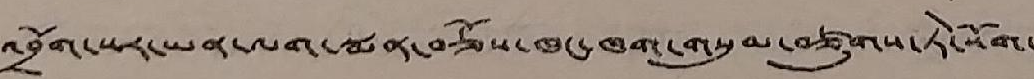འབྲོག་སར་ཡན་ལག་སྨན་བཅོས་ཁང་ཁག་གསུམ་བཙུགས་ཏེ་སོག་
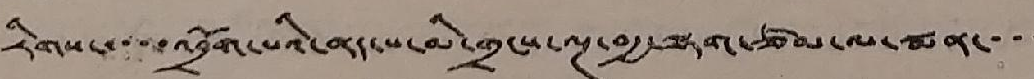རིགས་་་་་འབྲོག་པའི་ནད་པ་མི་གྲངས་ལྔ་བརྒྱ་ལྷག་ཙམ་ལ་སྨན་་་་
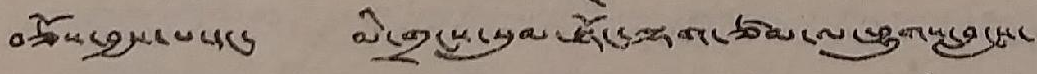བཅོས་བྱས་པ་དང་ མི་གྲངས་སུམ་སྟོང་ལྷག་ཙམ་ལ་ཕྱུགས་བླངས་
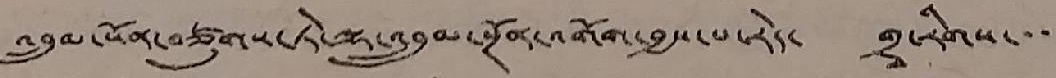འབྲུམ་སོན་བཙུགས་ཏེ་ལྷ་འབྲུམ་སྔོན་འགོག་བྱས་པ་རེད་ གྲྭ་རིགས་་་
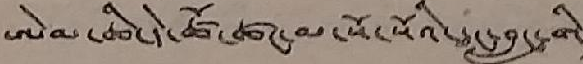ཨེམ་ཆི་དེ་ཚོ་ཚང་མ་སོ་སོའི་དང་བླང་གི
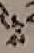ས་
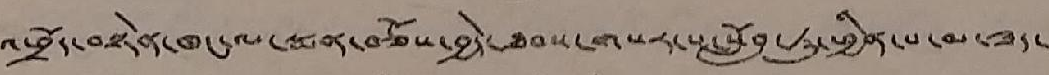འཕྲོད་བསྟེན་ཁང་ལ་སྨན་བཅོས་བྱེད་ཐབས་གསར་པ་སློབ་ཏུ་ཕྱིན་པ་མ་ཟད་
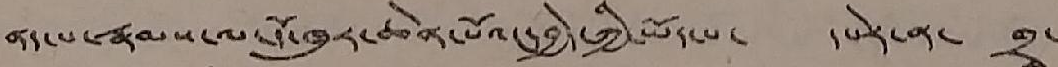ནད་པ་རྣམས་ལ་དོ་ཁུར་ཆེན་པོའང་བྱེད་ཀྱི་ཡོད་པ་ དཔེར་ན་ གྲྭ་
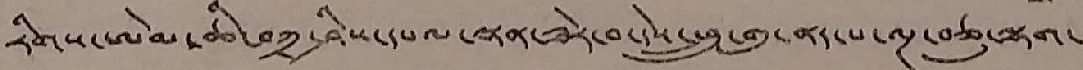རིགས་ཨེམ་ཆི་བཀྲ་ཤིས་དཔལ་ལྡན་ཟེར་བ་དེས་ཕྲུ་གུ་ནད་པ་ལྔ་བཅུ་ལྷག་
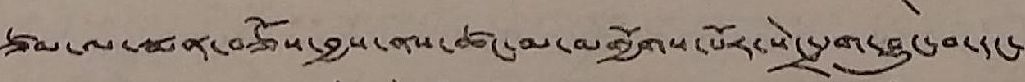ཙམ་ལ་སྨན་བཅོས་བྱས་ནས་ཚང་མ་མགྱོགས་པོར་སེང་དྲག་བྱུང་བ་དང་
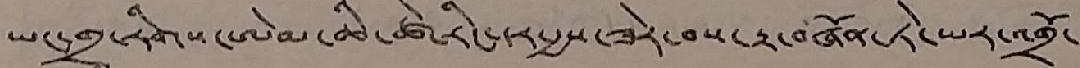ཡང་གྲྭ་རིགས་ཨེམ་ཆི་ཚེ་རིང་དར་རྒྱས་ཟེར་བས་རྟ་བཞོན་ཏེ་ཡར་འགྲོ་
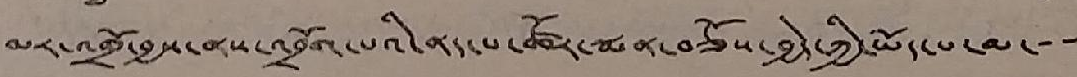མར་འགྲོ་བྱས་ནས་འབྲོག་པའི་ནད་པ་ཚོར་སྨན་བཅོས་བྱེད་ཀྱི་ཡོད་པ་མ་་་
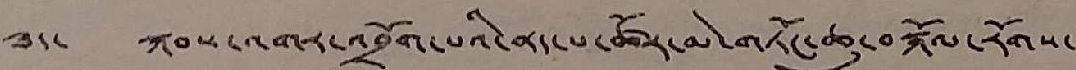ཟད་ སྐབས་འགར་འབྲོག་པའི་ནད་པ་ཚོར་མེ་གཏོང་ཆུ་བསྐོལ་རོགས་
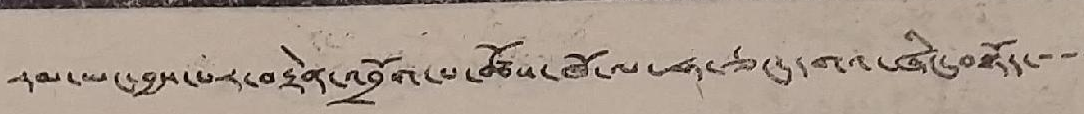རམ་ཡང་བྱས་པར་བརྟེན་འབྲོག་པ་ཚོས་ཁོ་ལ་ཧ་ཅང་དགའ་ཞིང་བསྟོད་་་་
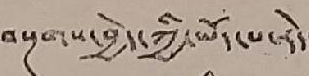བསྔགས་བྱེད་ཀྱི་ཡོད་པ་རེད་།
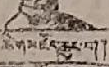ཚིགས་རྫོད་ཆུང་བ་།
